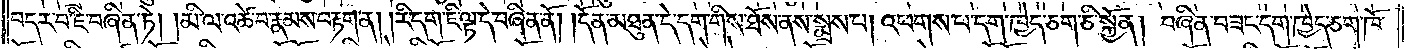བདར་བ་ཇི་བཞིན་ཏེ། །མི་ལ་འཚེ་བ་རྣམས་བརྟག་ན། །རི་དག་ཇི་ལྟ་དེ་བཞིན་ནོ། །དོན་མཐུན་དེ་དག་གིས་ཐོས་ནས་སྨྲས་པ། འཕགས་པ་དག་ཁྱེད་ཅག་ཅི་སྐྱོན། བཞིན་བཟང་དག་ཁྱེད་ཅག་ཁོ་
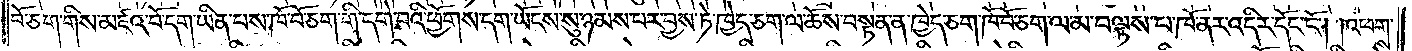བོ་ཅག་གིས་མཛའ་བོ་དག་ཡིན་པས་ཁོ་བོ་ཅག་གི་དགེ་བའི་ཕྱོགས་དག་ཡོངས་སུ་ཉམས་པར་བྱས་ཏེ་ཁྱེད་ཅག་ལ་ཆོས་བསྟན་ན་ཁྱེད་ཅག་ཁོ་བོ་ཅག་ལ་མ་བལྟས་པ་ཁོ་ནར་འདིར་དོང་ངོ༌། །འཕགས་
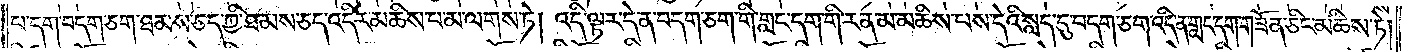པ་དག་བདག་ཅག་ཐམས་ཅད་ཀྱི་ཐམས་ཅད་འདིར་མཆིས་པ་མ་ལགས་ཏེ། འདི་ལྟར་དེ་ན་བདག་ཅག་གི་གླང་དག་གི་རན་མ་མཆིས་པས་དེའི་སླད་དུ་བདག་ཅག་འདི་ན་གླང་དག་གཟོན་ཅིང་མཆིས་ཏེ།
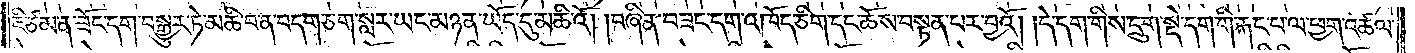ཇི་ཙམ་ན་ཟོང་དག་བསྒྱུར་ཏེ་མཆི་བ་ན་བདག་ཅག་སླར་ཡང་མཉན་ཡོད་དུ་མཆིའོ། །བཞིན་བཟང་དག་འཁོད་ཅིག་དང་ཆོས་བསྟན་པར་བྱའོ། །དེ་དག་གིས་དྲུག་སྡེ་དག་གི་རྐང་པ་ལ་ཕྱག་འཚལ་
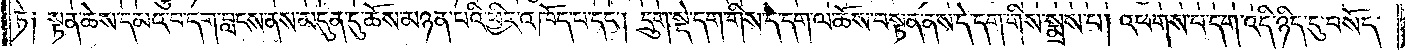ཏེ༑ སྟན་ཆེས་དམའ་བ་དག་བླངས་ནས་མདུན་དུ་ཆོས་མཉན་པའི་ཕྱིར་འཁོད་པ་དང༌། དྲུག་སྡེ་དག་གིས་དེ་དག་ལ་ཆོས་བསྟན་ནས་དེ་དག་གིས་སྨྲས་པ། འཕགས་པ་དག་འདི་ཉིད་དུ་བསོད་
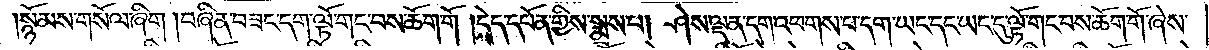སྙོམས་གསོལ་ཞིག །བཞིན་བཟང་དག་ལྟོ་གང་བས་ཆོག་གོ །དེད་དཔོན་གྱིས་སྨྲས་པ། ཤེས་ལྡན་དག་འཕགས་པ་དག་ཡང་དང་ཡང་དུ་ལྟོ་གང་བས་ཆོག་གོ་ཞེས་
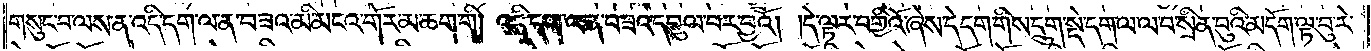གསུང་བ་ལས་ན་འདི་དག་ལ་ན་བཟའ་མི་མངའ་གོར་མ་ཆག་གི། འདི་དག་ལ་ན་བཟའ་དབུལ་བར་བྱའོ། །དེ་ལྟར་བགྱིའོ་ཞེས་དེ་དག་གིས་དྲུག་སྡེ་དག་ལ་ལ་བ་སྲིན་བུའི་མདོག་ལྟ་བུ་རེ་
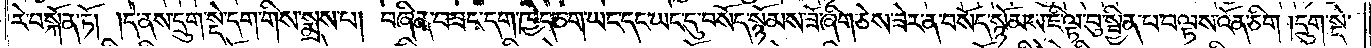རེ་བསྐོན་ཏོ། །དེ་ནས་དྲུག་སྡེ་དག་གིས་སྨྲས་པ། བཞིན་བཟང་དག་ཁྱེད་ཅག་ཡང་དང་ཡང་དུ་བསོད་སྙོམས་ཟོ་ཞིག་ཅེས་ཟེར་ན་བསོད་སྙོམས་ཇི་ལྟ་བུ་སྦྱིན་པ་བལྟས་འོན་ཅིག །དྲུག་སྡེ་
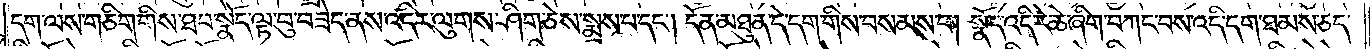དག་ལས་གཅིག་གིས་ཐབ་སྣོད་ལྟ་བུ་བཟེད་ནས་འདིར་ལུགས་ཤིག་ཅེས་སྨྲས་པ་དང༌། དོན་མཐུན་དེ་དག་གིས་བསམས་པ། སྣོད་འདི་རེ་ཆེ་ཞིག་བཀང་བས་འདི་དག་ཐམས་ཅད་
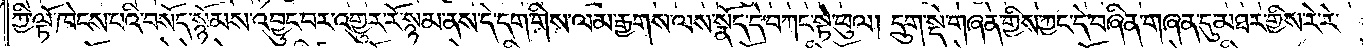ཀྱི་ལྟོ་ཁེངས་པའི་བསོད་སྙོམས་འབྱུང་བར་འགྱུར་རོ་སྙམ་ནས་དེ་དག་གིས་ལམ་རྒྱགས་ལས་སྣོད་དེ་བཀང་སྟེ་ཕུལ། དྲུག་སྡེ་གཞན་གྱིས་ཀྱང་དེ་བཞིན་གཞན་དུ་མཐར་གྱིས་རེ་རེ་
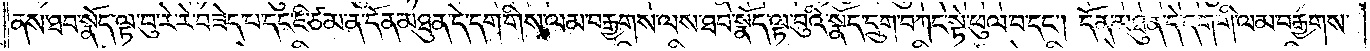ནས་ཐབ་སྣོད་ལྟ་བུ་རེ་རེ་བཟེད་པ་དང་ཇི་ཙམ་ན་དོན་མཐུན་དེ་དག་གིས་ལམ་བརྒྱགས་ལས་ཐབ་སྣོད་ལྟ་བུའི་སྣོད་དྲུག་བཀང་སྟེ་ཕུལ་བ་དང༌། དོན་མཐུན་དེ་དག་གི་ལམ་བརྒྱགས་
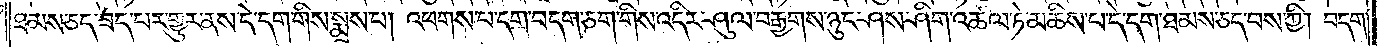ཐམས་ཅད་ཟད་པར་གྱུར་ནས་དེ་དག་གིས་སྨྲས་པ། འཕགས་པ་དག་བདག་ཅག་གིས་འདིར་ཤུལ་བརྒྱགས་ཉུང་ཤས་ཤིག་འཚལ་ཏེ་མཆིས་པ་དེ་དག་ཐམས་ཅད་བས་ཀྱི། བདག་
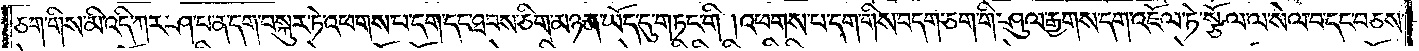ཅག་གིས་མི་འདི་ཀར་ཤ་པ་ན་དག་བསྐུར་ཏེ་འཕགས་པ་དག་དང་ཐབས་ཅིག་མཉན་ཡོད་དུ་གཏང་གི །འཕགས་པ་དག་གིས་བདག་ཅག་གི་ཤུལ་རྒྱགས་དག་འཇོལ་ཏེ་སྩོལ་ལ་སེལ་བ་དང་བཅས་
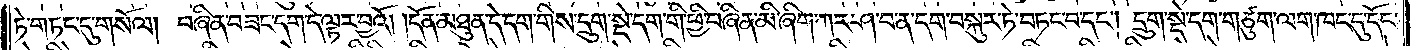ཏེ་གཏང་དུ་གསོལ། བཞིན་བཟང་དག་དེ་ལྟར་བྱའོ། །དོན་མཐུན་དེ་དག་གིས་དྲུག་སྡེ་དག་གི་ཕྱི་བཞིན་མི་ཞིག་ཀར་ཤ་བ་ན་དག་བསྐུར་ཏེ་བཏང་བ་དང༌། དྲུག་སྡེ་དག་གཙུག་ལག་ཁང་དུ་དོང་
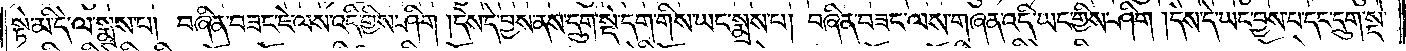སྟེ་མི་དེ་ལ་སྨྲས་པ། བཞིན་བཟང་ཇེ་ལས་འདི་གྱིས་ཤིག །དེས་དེ་བྱས་ནས་དྲུག་སྡེ་དག་གིས་ཡང་སྨྲས་པ། བཞིན་བཟང་ལས་གཞན་འདི་ཡང་གྱིས་ཤིག །དེས་དེ་ཡང་བྱས་པ་དང་དྲུག་སྡེ་
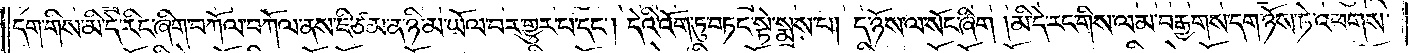དག་གིས་མི་དེ་རིང་ཞིག་བཀོལ་བཀོལ་ནས་ཇི་ཙམ་ན་ཉི་མ་ཡོལ་བར་གྱུར་པ་དང༌། དེའི་འོག་ཏུ་བཏང་སྟེ་སྨྲས་པ། ད་ཉོས་ལ་སོང་ཞིག །མི་དེ་རང་གིས་ལམ་བརྒྱགས་དག་ཉོས་ཏེ་འཕགས་
